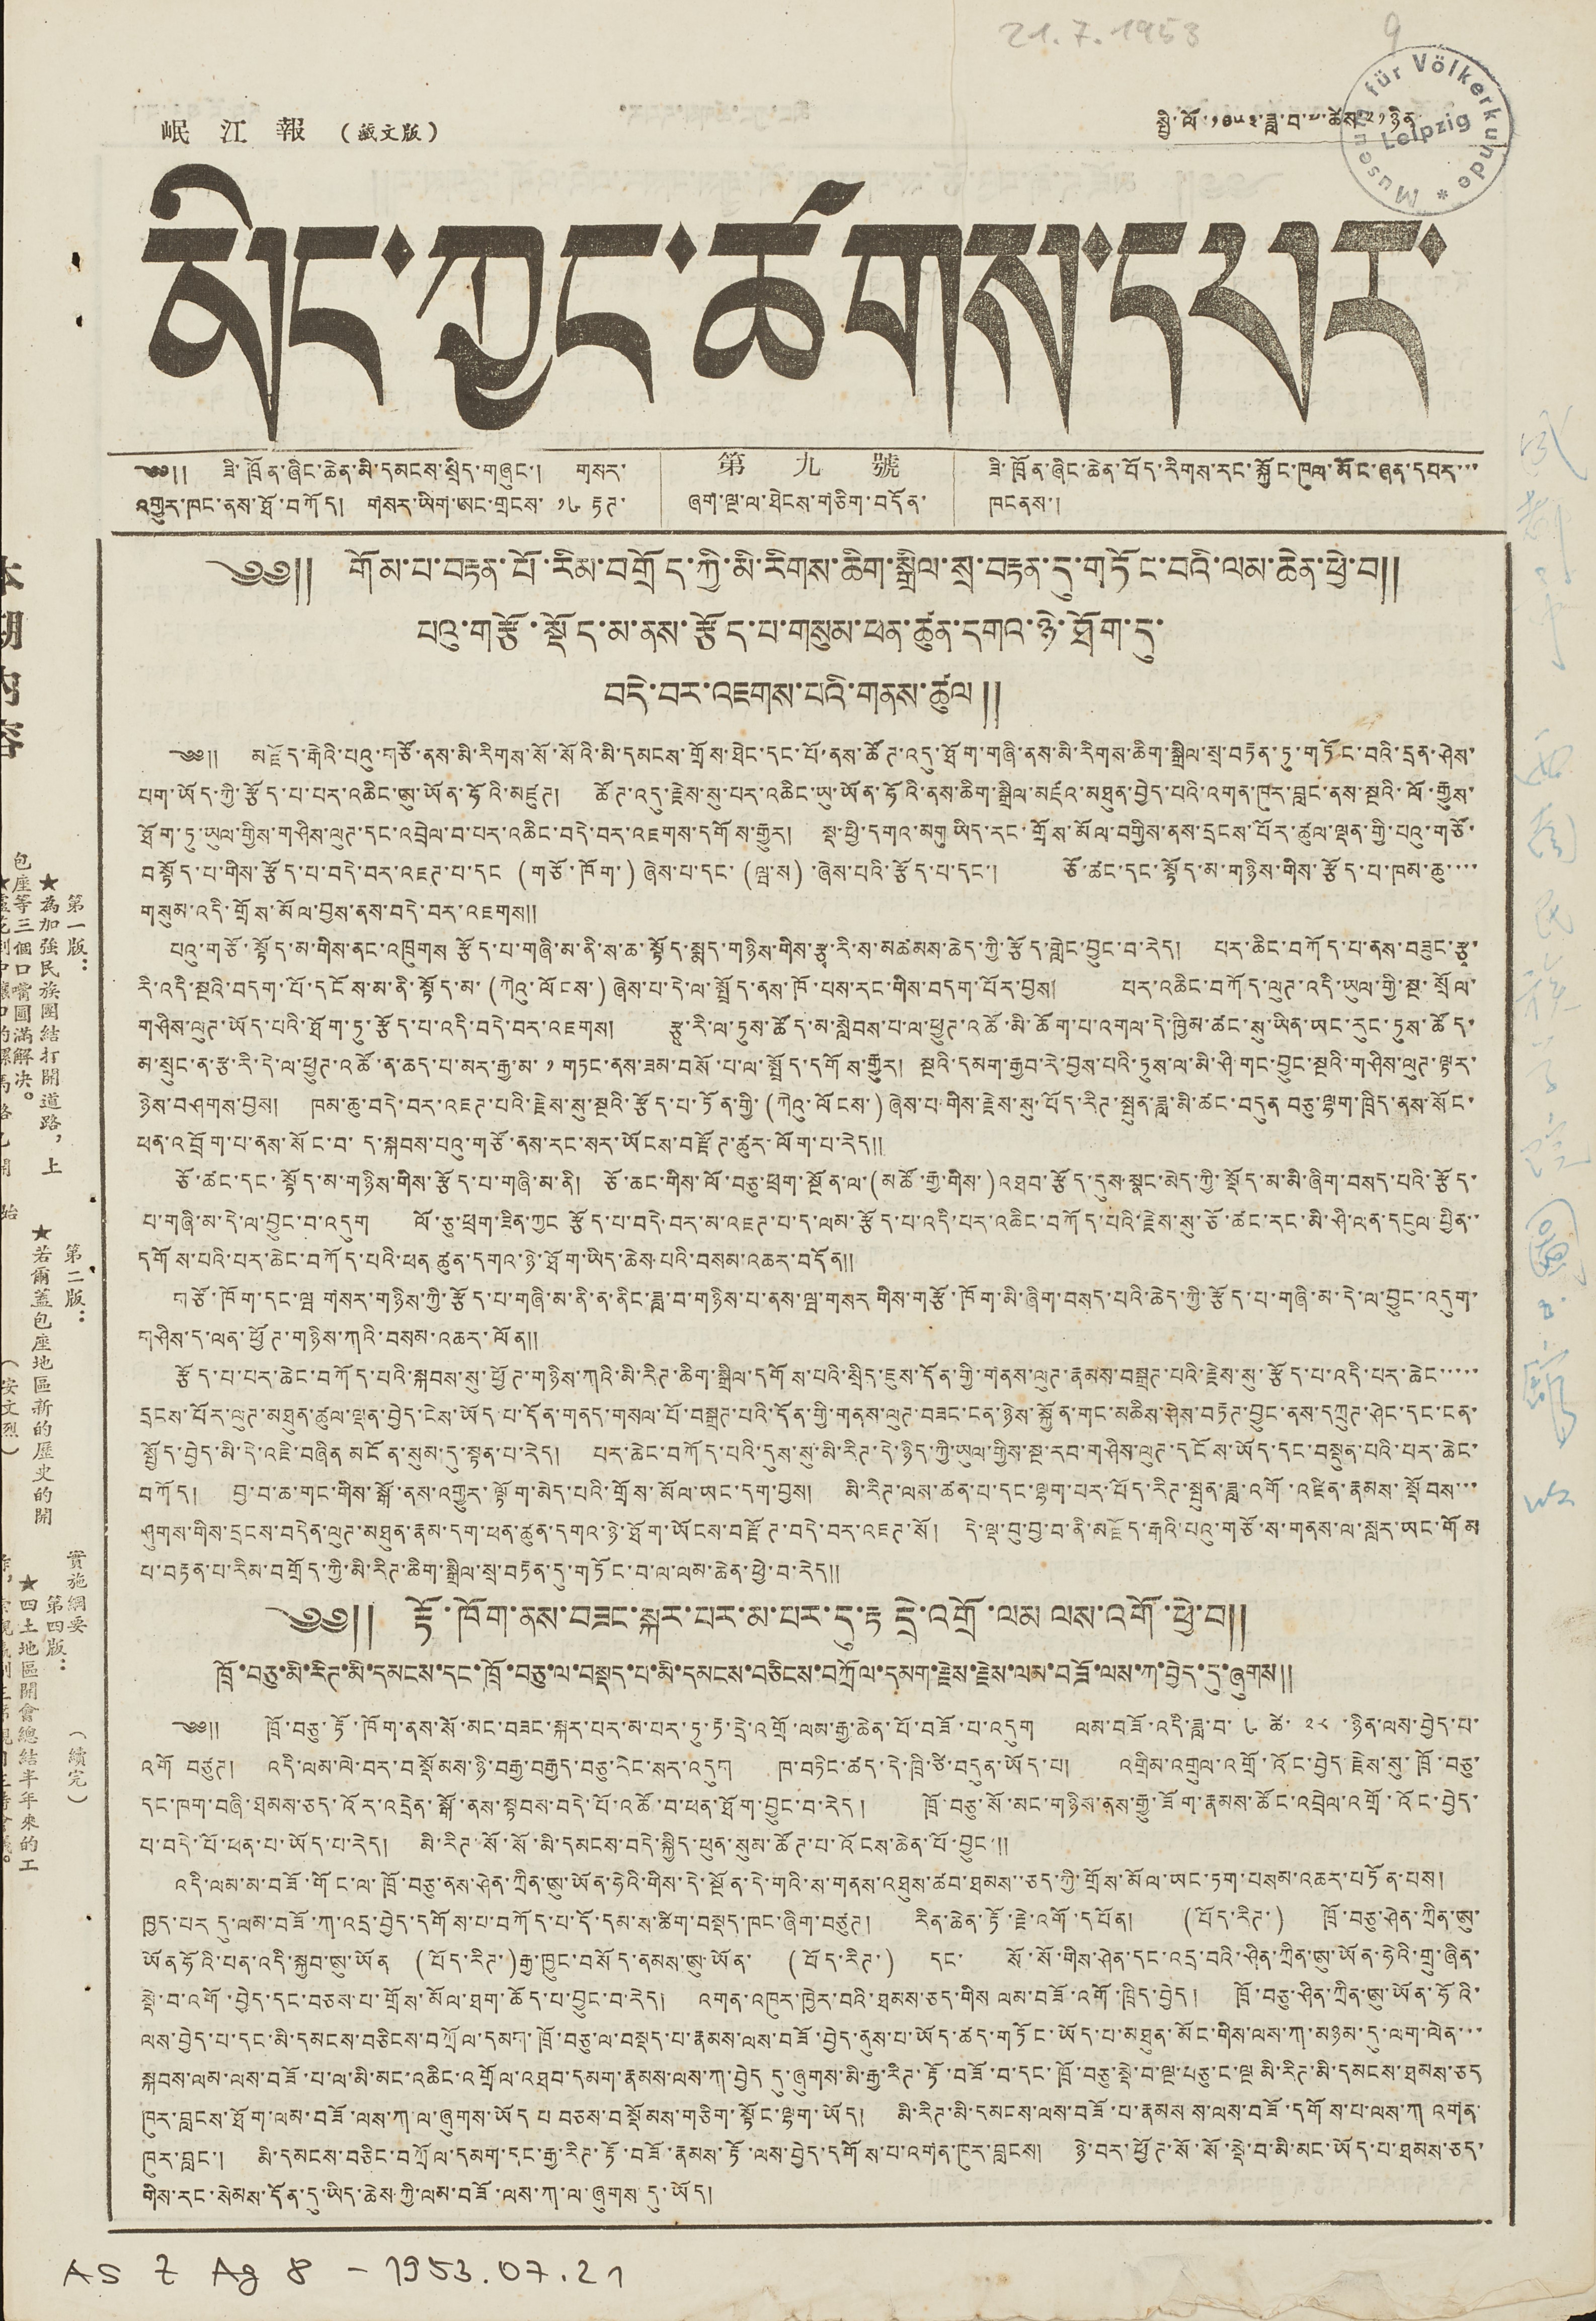岷 江 報 （藏文版） སྤྱི་ལོ་༡༩༥༣་ཟླ་བ་༧་ཚེས་༢༡ཉིན་
མིང་ཀྱང་ཚགས་དཔར་
本 期 內 容
第一版：
★爲加強民族團結打開道路，上
包座等三個口嘴圓滿解決
★蘆花到中壤口的騾馬路已開
第二版：
★若爾蓋包座地區新的歷史開
始 （安文烈）
實施綱要 （續完）
第四版：
★四土地區開會總結半年來的工
作，索觀瀛副主席親自主持會議。
༄༅༎ གོམ་པ་བརྟན་པོ་རིམ་བགྲོད་ཀྱི་མི་རིགས་ཆིག་སྒྲིལ་སྲ་བརྟན་དུ་གཏོང་བའི་ལམ་ཆེན་ཕྱེ་བ༎
པའུ་གརྩོ་སྡོད་མ་ནས་རྩོད་པ་གསུམ་ཕན་ཚུན་དགའ་ཉེ་ཐོག་དུ་
བདེ་བར་འཇགས་པའི་གནས་ཚུལ༎
༄༅༎ མཛོད་རྒེ་པའུ་གཙོ་ནས་མི་རིགས་སོ་སོའི་མི་དམངས་གྲོས་ཐེང་དང་པོ་ནས་ཚོཊ་འདུ་ཐོག་གཞི་ནས་མི་རིགས་ཆིག་སྒྲིལ་སྲ་བརྟེན་ཏུ་གཏོང་བའི་དྲན་ཤེས་
པག་ཡོད་ཀྱི་རྩོད་པ་པར་འཆིང་ཨུ་ཡོན་ཧོའི་མཛུཊ། ཚོཊ་འདུ་རྗེས་སུ་པར་འཆིང་ཡུ་ཡོན་ཧོའི་ནས་ཆིག་སྒྲིལ་མཛའ་མཐུན་བྱེད་པའི་འགན་ཁུར་བླང་ནས་སྔའི་ལོ་རྒྱུས་
ཐོག་ཏུ་ཡུལ་གྱིས་གཤིས་ལུཊ་དང་འབྲེལ་བ་པར་འཆིང་བདེ་བར་འཇགས་དགོས་རྒྱུར། སྡ་ཕྱི་དགའ་མགུ ཡིད་རང་གྲོས་མོལ་བགྱིས་ནས་དྲངས་པོར་ཚུལ་ལྡན་གྱི་པའུ་གཙོ་
བསྟོད་པ་གིས་རྩོད་པ་བདེ་བར་འཇཊ་པ་དང (གཙོ་ཁོག་) ཞེས་པ་དང་ (ལྦ་ས) ་ཞེས་པའི་རྩོད་པ་དང་། ཅོ་ཚང་དང་སྟོད་མ་གཉིས་གིས་རྩོད་པ་ཁམ་ཆུ་་་་
གསུམ་འདི་གྲོས་མོལ་བྱས་ནས་བདེ་བར་འཇགས༎
པའུ་གཙོ་སྟོད་མ་གིས་ནང་འཁྲུགས རྩོད་པ་གཞི་མ་ནི་ས་ཆ་སྟོད་སྨད་གཉིས་གིས་རྩྭ་རི་ས་མཚམས་ཆེད་ཀྱི་རྩོད་གླེང་བྱུང་བ་རེད། པར་ཆིང་བཀོད་པ་ནས་བཟུང་རྩྭ་
རི་འདི་སྔའི་བདག་པོ་དངོས་མ་ནི་སྟོད་མ་ (ཀེའུ་ལོངས་) ཞེས་པ་དེ་ལ་སྤྲོད་ནས་ཁོ་པས་རང་གིས་བདག་པོར་བྱས། པར་འཆིང་བཀོད་ལུཊ་འདི་ཡུལ་གྱི་སྔ་སྲོལ་
གཤིས་ལུཊ་ཡོད་པའི་ཐོག་ཏུ་རྩོད་པ་འདི་བདེ་བར་འཇགས། རྩྭ་རི་ལ་ཏུས་ཚོད་མ་སླེབས་པ་ལ་ཕྱུཊ་འཚོ་མི་ཆོག་པ་འགལ་དེ་ཁྱིམ་ཚང་སུ་ཡིན་ཡང་རུང་ཏུས་ཚོད་
མ་སྲུང་ན་རྩ་རི་དེ་ལ་ཕྱུཊ་འཚོ་ན་ཆད་པ་མར་རྒྱ་མ་ ༡ གཏང་ནས་ཟམ་བསོ་པ་ལ་སྤྲོད་དགོས་རྒྱུར། སྔའི་དམག་རྒྱབ་རེ་བྱས་པའི་ཏུས་ལ་མི་ཤི གང་བྱུང་སྔའི་གཤིས་ལུཊ་ལྟར་
ཉེས་བཤགས་བྱས། ཁམ་ཆུ་བདེ་བར་འཇཊ་པའི་རྗེས་སུ་སྔའི་རྩོད་པ་ཏོན་གྱི་ (ཀེའུ་ལོངས་) ཞེས་པ་གིས་རྗེས་སུ་བོད་རིཊ་སྤུན་ཟླ་མི་ཚང་བདུན བཅུ་ལྷག་ཁྲིད་ནས་སོང་
ཕན་འབྲོག་པ་ནས་སོང་བ་ད་སྐབས་པའུ་གཙོ་ནས་རང་སར་ཡོངས་བརྫོཊ་ཚུར་ལོག་པ་རེད༎
ཅོ་ཚང་དང་སྟོད་མ་གཉིས་གིས་རྩོད་པ་གཞི་མ་ནི། ཅོ་ཆང་གིས་ལོ་བཅུ་ཕྲག་སྔོན་ལ་(མཚོ་རྒྱ་གིས་)འཐབ་རྩོད་དུས་སྣང་མེད་ཀྱི་སྡོད་མ་མི་ཞིག་བསད་པའི་རྩོད་
པ་གཞི་མ་དེ་ལ་བྱུང་བ་འདུག ལོ་ཅུ་ཕྲག་ཟིན་ཀྱང རྩོད་པ་བདེ་བར་མ་འཇཊ་པ་ད་ལམ་རྩོད་པ་འདི་པར་འཆིང་བཀོད་པའི་རྗེས་སུ་ཅོ་ཚང་རང་མི་ཤི་ལན་དངུལ་བྱིན་་
དགོས་པའི་པར་ཆེང་བཀོད་པའི་ཕན ཚུན་དགའ་ཉེ་ཐོག་ཡོད་ཆེས་པའི་བསམ་འཆར་བདོན༎
གཙོ་ཁོག་དང་ལྦ གསར་གཉིས་ཀྱི་རྩོད་པ་གཞི་མ་ནི་ན་ནིང་ཟླ་བ་གཉིས་པ་ནས་ལྦ་གསར གིས་གརྩོ་ཁོག་མི་ཞིག་བསད་པའི་ཆེད་ཀྱི་རྩོད་པ་གཞི་མ་དེ་ལ་བྱུང་འདུག་
གཤིས་ད་ལན་ཕྱོཊ་གཉིས་ཀའི་བསམ་འཆར་ལོན༎
རྩོད་པ་པར་ཆེང་བཀོད་པའི་སྐབས་སུ་ཕྱོཊ་གཉིས་ཀའི་མི་རིཊ་ཆིག་སྒྲིལ་དགོས་པའི་སྲིད་ཇུས་དོན་གྱི་གནས་ལུཊ་རྣམས་བསྒྲཊ་པའི་རྗེས་སུ་རྩོད་པ་འདི་པར་ཆེང་་་་་
དྲངས་པོར་ལུཊ་མཐུན་ཚུལ་ལྡན་བྱེད་ངེས་ཡོད་པ་དོན་གནད་གསལ་པོ་བསྒྲཊ་པའི་དོན་གྱི་གནས་ལུཊ་བཟང་ངན་ཉེས་སྐྱོན་གང་མཆིས་ཤེས་བརྟཊ་བྱུང་ནས་དཀྲུཊ་ཤེང་དང་ངན་
སྤྱོད་བྱེད་མི་དེ་འཇི་བཞིན མངོན་སུམ་དུ་སྟན་པ་རེད། པར་ཆེང་བཀོད་པའི་དུས་སུ་མི་རིཊ་དེ་ཉིད་ཀྱི་ཡུལ་གྱིས་སྔ་རབ་གཤིས་ལུཊ་དངོས་ཡོད་དང་བསྡུན་པའི་པར་ཆེང་
བཀོད། བྱ་བ་ཆ་གང་གིས་སྒོ་ནས་འགྱུར་ལྟོག་མེད་པའི་གྲོས་མོལ་ཡང་དག་བྱས། མི་རིཊ་ལས་ཚན་པ་དང་ལྷག་པར་བོད་རིཊ་སྤུན་ཟླ་འགོ་འཛིན་རྣམས་སྡོབས་་་
ཤུགས་གིས་དྲངས་བདེན་ལུཊ་མཐུན་རྣམ་དག་ཕན་ཚུན་དགའ་ཉེ་ཐོག་ཡོངས་བརྫོཊ་བདེ་བར་འཇཊ་སོ། དེ་ལྡ་བུ་བྱ་བ་ནི་མཇོད་རྒའི་པའུ་གཙོ་ས་གནས་ལ་སླར་ཡང་གོམ
པ་བརྟན་པ་རིམ་བགྲོད་ཀྱི་མི་རིཊ་ཆིག་སྒྲིལ་སྲ་བརྟན་དུ་གཏོང་བ་ལ་ལམ་ཆེན་ཕྱེ་བ་རེད༎
༄༅༎ རྟོ་ཁོག་ནས་བཟང་སྐར་པར་མ་པར་དུ་རྟ དྲེ་འགྲོ་ལམ ལས་འགོ་ཕྱེ་བ༎
ཁྲོ་བཅུ་མི་རིཊ་མི་དམངས་དང་ཁྲོ་བཅུ་ལ་བསྡད་པ་མི་དམངས་བཅིངས་བཀྲོལ་དམག་རྗེས་རྗེས་ལམ་བཟོ་ལས་ཀ་བྱེད་དུ་ཞུགས༎
༄༅༎ ཁྲོ་བཅུ་རྟོ་ཁོག་ནས་སོ་མང་བཟང་སྐར་པར་མ་པར་ཏུ་རྟ་དྲེ་འགྲོ་ལམ་རྒྱ་ཆེན་པོ་བཟོ་པ་འདུག ལམ་བཟོ་འདི་ཟླ་བ་ ༦ ཚེ་ ༢༨ ་ཉིན་ལས་བྱེད་པ་
འགོ བཙུཊ། འདི་ལམ་ལེ་བར་བསྡོམས་ཉི་བརྒྱ་བརྒྱད་བཅུ་དེང་སར་འདུག ཁ་བཏིང་ཚད་དེ་ཁྲི་ཙི་བདུན་ཡོད་པ། འགྲིམ་འགྲུལ་འགྲོ་འོང་བྱེད རྗེས་སུ་ཁྲོ་བཅུ་
དང་ཁག་བཞི་ཐམས་ཅད་འོར་འདྲེན་སྒོ་ནས་སྟབས་བདེ་པོ་འཚོ་བ་ཕན་ཐོག་བྱུང་བ་རེད། ཁྲོ་བཅུ་སོ་མང་གཉིས་ནས་རྒྱུ་ཟོག་རྣམས་ཚོན་འབྲེལ་འགྲོ་འོང་བྱེད་
པ་བདེ་པོ་ཕན་པ་ཡོད་པ་རེད། མི་རིཊ་སོ་སོ་མི་དམངས་བདེ་སྐྱིད་ཕུན་སུམ་ཚོཊ་པ་འོངས་ཆེན་པོ་བྱུང་༎
འདི་ལམ་མ་བཟོ་གོང་ལ་ཁྲོ་བཅུ་ནས་ཤེན་ཀྲིན་ཨུ་ཡོན་ཧེའི་གིས་དེ་སྔོན་དེ་གའི་ས་གནས་འཐུས་ཚབ་ཐམས་་ཅད་ཀྱི་གྲོས་མོལ་ཡང་ཏག་བསམ་འཆར་བཏོན་པས།
ཁྱད་པར དུ་ལམ་བཟོ་ཀ་འདྲ་བྱེད་དགོས་པ་བཀོད་པ་དོ་དམ་ས་ཚིག་བསྡད་ཁང་ཞིག་བཙུཊ། རིན་ཆེན་རྟོ་རྗེ་འགོ་དཔོན། (བོད་རིཊ་) ཁྲོ་བཅུ་ཤེན་ཀྲིན་ཨུ་
ཡོན ཧོའི་པན་འདི་སྐྱབ་ཨུ་ཡོན (བོད་རིཊ་)རྒྱ་ཁྱུང་བསོད་ནམས་ཨུ་ཡོན་ (བོད་རིཊ་) དང་ སོ་སོ་གིས་ཤེན་དང་འདྲ་བའི་ཤིན་ཀྲིན་ཨུ་ཡོན་ཧེའི་གྲུ་ཞིན་
སྡེ་བ་འགོ་བྱེད་དང་བཅས་པ་གྲོས་མོལ་ཐག་ཆོད་པ་བྱུང་བ་རེད། འགན་འཁུར་ཁྱེར་བའི་ཐམས་ཅད་གིས ལམ་བཟོ་འགོ་ཁྲིད་བྱེད། ཁྲོ་བཅུ་ཤིན་ཀྲིན་ཨུ་ཡོན་ཧོའི་
ལས་བྱེད་པ་དང་མི་དམངས་བཅིངས་བཀྲོལ་དམག་ཁྲོ་བཅུ་ལ་བསྡད་པ་རྣམས་ལས་བཟོ་བྱེད་ནུས་པ་ཡོད་ཚད་གཏོང་ཡོད་པ་མཐུན་མོང་གིས་ལས་ཀ་མཉམ་དུ་ལག་ལེན་་་
སྐབས་ལམ་ལས་བཟོ་པ་ལ་མི་མང་འཆིང་འགྲོལ་འཐབ་དམག་རྣམས་ལས་ཀ་བྱེད དུ་ཞུགས་མི་རྒྱ་རིཊ་རྟོ་བཟོ་བ་དང་ཁྲོ་བཅུ་སྡེ་བ་ལྔ་བཅུ་ང་ལྔ མི་རིཊ་མི་དམངས་ཐམས་ཅད
ཁུར་བླངས་ཐོག་ལམ་བཟོ་ལས་ཀ་ལ་ཞུགས་ཡོད པ བཅས་བསྡོམས་གཅིག་སྟོང་ལྷག་ཡོད། མི་རིཊ་མི་དམངས་ལས་བཟོ་པ་རྣམས ས་ལས་བཟོ་དགོས་པ་ལས་ཀ འགན་
ཁུར་བླང་། མི་དམངས་བཅིང་བཀྲོལ་དམག་དང་རྒྱ་རིཊ་རྟོ་བཟོ་རྣམས་རྟོ་ལས་བྱེད་དགོས་པ་འགན་ཁུར་བླངས། ཉེ་བར་ཕྱོཊ་སོ་སོ་སྡེ་བ་མི་མང་ཡོད་པ་ཐམས་ཅད་
གིས་རང་སེམས་དོན་དུ་ཡོད་ཆེས་ཀྱི་ལམ་བཟོ་ལས་ཀ་ལ་ཞུགས དུ་ཡོད།
